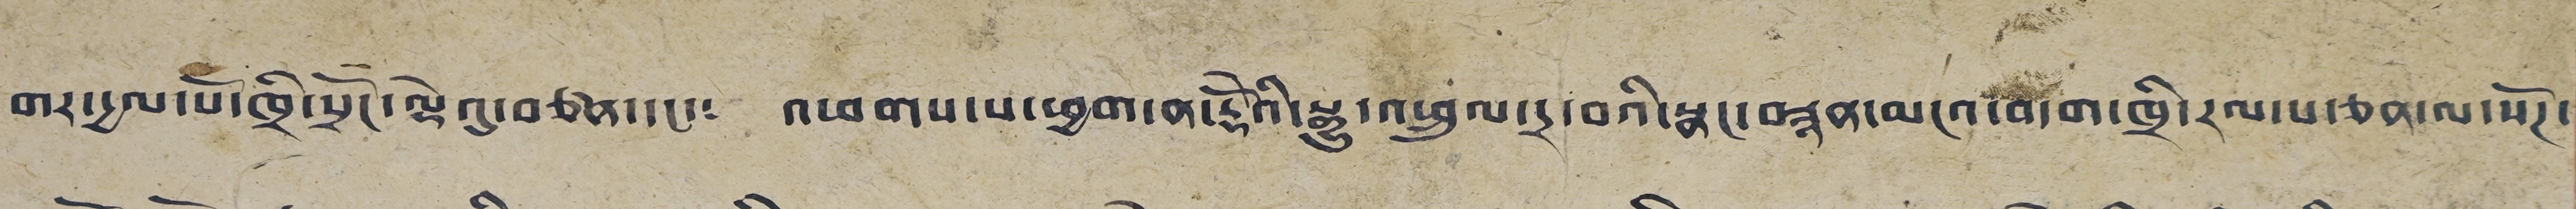གར་དྱལ་པོ་ཁྲི་སྲོང་ལྡེའུ་བཙན་དང་༴ འཕགས་པ་ཕྱག་ན་རྡོ་རྗེའི་སྒྱུ་འའཕྲུལ་དྲ་བའི་སྣང་བརྙན་མངའ་བདག་ཁྲི་རལ་པ་ཅན་ལ་སོཊ་
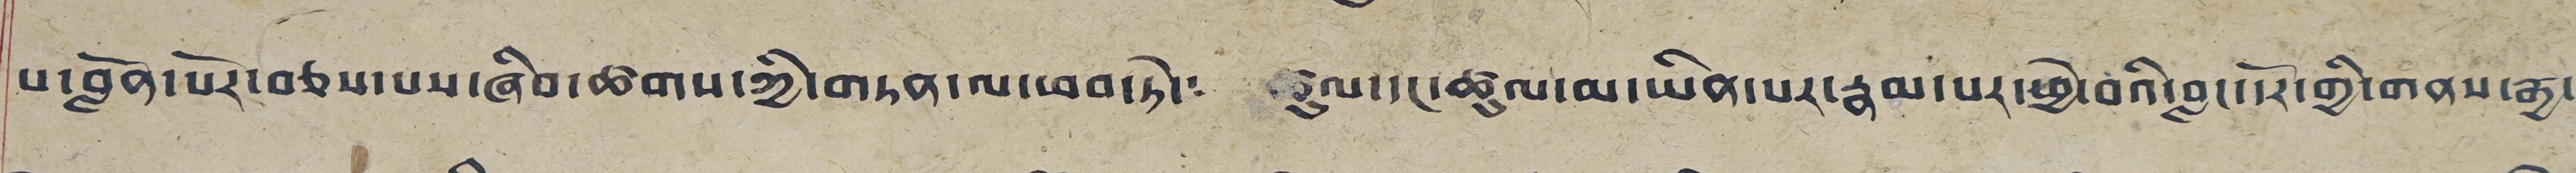པ་བློན་པོར་བཅས་པས་ཞིབ་ཚགས་ཀྱི་གཏན་ལ་ཕབ་སྟེ་༴ ཚུལ་དང་ཚུལ་མ་ཡིན་པར་རྣམ་པར་ཕྱེ་བའི་བླང་དོར་གྱི་གནས་རྒྱ་
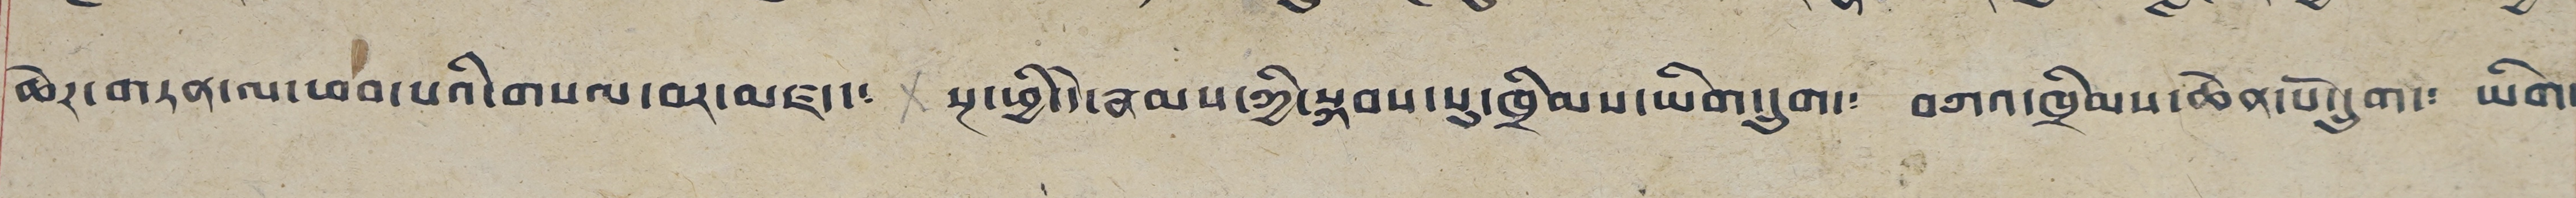ཆེར་གཏན་ལ་ཕབ་པའི་གསལ་བར་མཛད་༴ སྔ་ཕྱི་དེ་རྣམས་ཀྱི་སྐབས་སུ་ཁྲིམས་ཡིག་དྲུག་༴ བཀའ་ཁྲིམས་ཆེན་པོ་དྲུག་༴ ཡིག་
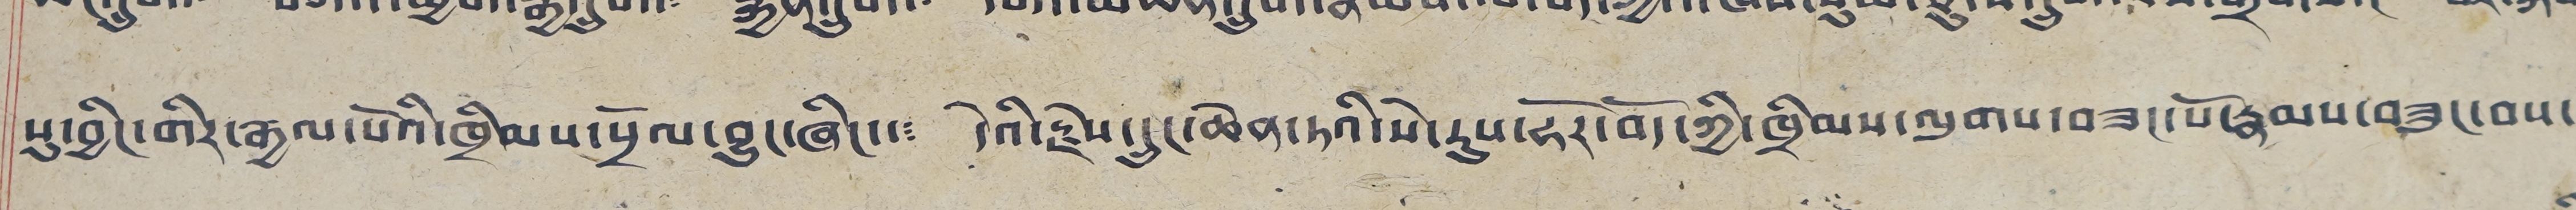སུ་བྱིང་གིར་རྒྱལ་པོའི་ཁྲིམས་སྲོལ་བྱུང་ཞིང་༴ དེའི་རྗེས་དྲུང་ཆེན་ཏའི་སེ་ཏུས་ཧོར་བོད་ཀྱི་ཁྲིམས་ལུགས་བཟང་པོ་རྣམས་བཟུང་བས་
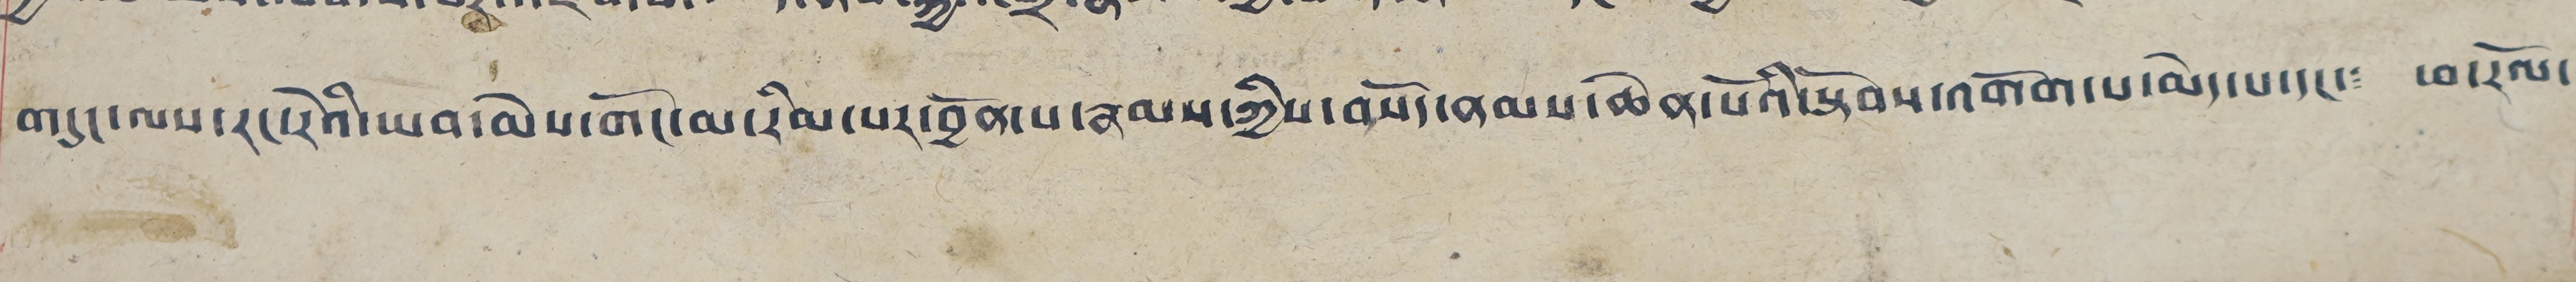གདུང་ལས་རང་རེའི་ཡབ་མེས་གོང་མ་རིམ་པར་བྱོན་པ་རྣམས་ཀྱིས་བསོད་ནམས་ཆེན་པོའི་སྟོབས་འགོག་པ་མེད་པ་དང་༴ ཕ་རོལ་
